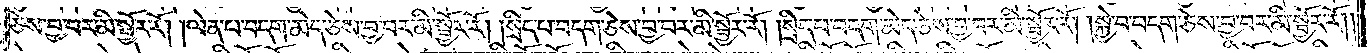ཅེས་བྱ་བར་མི་སྦྱོར་རོ། །ལེན་པ་བདག་མེད་ཅེས་བྱ་བར་མི་སྦྱོར་རོ། །སྲིད་པ་བདག་ཅེས་བྱ་བར་མི་སྦྱོར་རོ། །སྲིད་པ་བདག་མེད་ཅེས་བྱ་བར་མི་སྦྱོར་རོ། །སྐྱེ་བ་བདག་ཅེས་བྱ་བར་མི་སྦྱོར་རོ༎
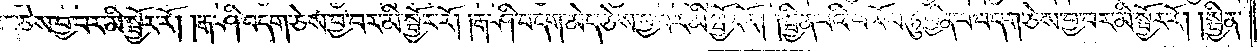སྐྱེ་བ་བདག་མེད་ཅེས་བྱ་བར་མི་སྦྱོར་རོ། །རྒ་ཤི་བདག་ཅེས་བྱ་བར་མི་སྦྱོར་རོ། །རྒ་ཤི་བདག་མེད་ཅེས་བྱ་བར་མི་སྦྱོར་རོ། །སྦྱིན་པའི་ཕ་རོལ་ཏུ་ཕྱིན་པ་བདག་ཅེས་བྱ་བར་མི་སྦྱོར་རོ། །སྦྱིན་
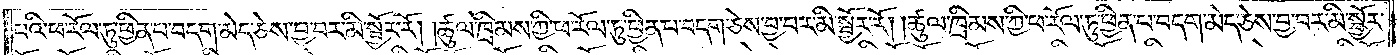པའི་ཕ་རོལ་ཏུ་ཕྱིན་པ་བདག་མེད་ཅེས་བྱ་བར་མི་སྦྱོར་རོ། །ཚུལ་ཁྲིམས་ཀྱི་ཕ་རོལ་ཏུ་ཕྱིན་པ་བདག་ཅེས་བྱ་བར་མི་སྦྱོར་རོ། །ཚུལ་ཁྲིམས་ཀྱི་ཕ་རོལ་ཏུ་ཕྱིན་པ་བདག་མེད་ཅེས་བྱ་བར་མི་སྦྱོར་
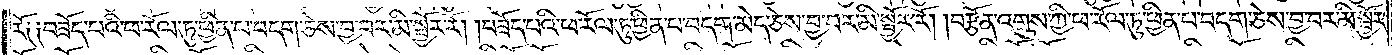རོ༑ ༑བཟོད་པའི་ཕ་རོལ་ཏུ་ཕྱིན་པ་བདག་ཅེས་བྱ་བར་མི་སྦྱོར་རོ། །བཟོད་པའི་ཕ་རོལ་ཏུ་ཕྱིན་པ་བདག་མེད་ཅེས་བྱ་བར་མི་སྦྱོར་རོ། །བརྩོན་འགྲུས་ཀྱི་ཕ་རོལ་ཏུ་ཕྱིན་པ་བདག་ཅེས་བྱ་བར་མི་སྦྱོར་
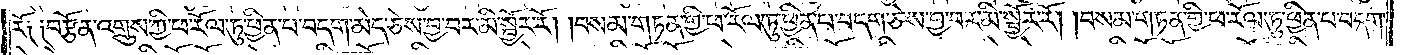རོ༑ ༑བརྩོན་འགྲུས་ཀྱི་ཕ་རོལ་ཏུ་ཕྱིན་པ་བདག་མེད་ཅེས་བྱ་བར་མི་སྦྱོར་རོ། །བསམ་གཏན་གྱི་ཕ་རོལ་ཏུ་ཕྱིན་པ་བདག་ཅེས་བྱ་བར་མི་སྦྱོར་རོ། །བསམ་གཏན་གྱི་ཕ་རོལ་ཏུ་ཕྱིན་པ་བདག་
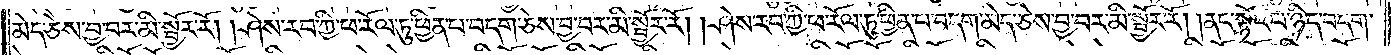མེད་ཅེས་བྱ་བར་མི་སྦྱོར་རོ། །ཤེས་རབ་ཀྱི་ཕ་རོལ་ཏུ་ཕྱིན་པ་བདག་ཅེས་བྱ་བར་མི་སྦྱོར་རོ། །ཤེས་རབ་ཀྱི་ཕ་རོལ་ཏུ་ཕྱིན་པ་བདག་མེད་ཅེས་བྱ་བར་མི་སྦྱོར་རོ། །ནང་སྟོང་པ་ཉིད་བདག་
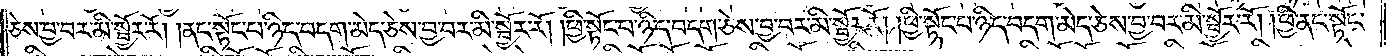ཅེས་བྱ་བར་མི་སྦྱོར་རོ། །ནང་སྟོང་པ་ཉིད་བདག་མེད་ཅེས་བྱ་བར་མི་སྦྱོར་རོ། །ཕྱི་སྟོང་པ་ཉིད་བདག་ཅེས་བྱ་བར་མི་སྦྱོར་རོ། །ཕྱི་སྟོང་པ་ཉིད་བདག་མེད་ཅེས་བྱ་བར་མི་སྦྱོར་རོ། །ཕྱི་ནང་སྟོང་
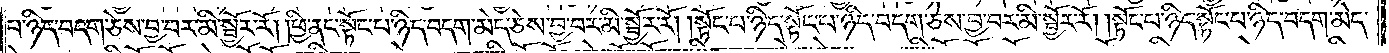པ་ཉིད་བདག་ཅེས་བྱ་བར་མི་སྦྱོར་རོ། །ཕྱི་ནང་སྟོང་པ་ཉིད་བདག་མེད་ཅེས་བྱ་བར་མི་སྦྱོར་རོ། །སྟོང་པ་ཉིད་སྟོང་པ་ཉིད་བདག་ཅེས་བྱ་བར་མི་སྦྱོར་རོ། །སྟོང་པ་ཉིད་སྟོང་པ་ཉིད་བདག་མེད་
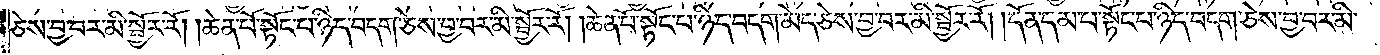ཅེས་བྱ་བར་མི་སྦྱོར་རོ། །ཆེན་པོ་སྟོང་པ་ཉིད་བདག་ཅེས་བྱ་བར་མི་སྦྱོར་རོ། །ཆེན་པོ་སྟོང་པ་ཉིད་བདག་མེད་ཅེས་བྱ་བར་མི་སྦྱོར་རོ། །དོན་དམ་པ་སྟོང་པ་ཉིད་བདག་ཅེས་བྱ་བར་མི་
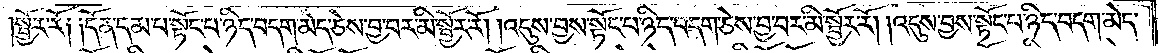སྦྱོར་རོ། །དོན་དམ་པ་སྟོང་པ་ཉིད་བདག་མེད་ཅེས་བྱ་བར་མི་སྦྱོར་རོ། །འདུས་བྱས་སྟོང་པ་ཉིད་བདག་ཅེས་བྱ་བར་མི་སྦྱོར་རོ། །འདུས་བྱས་སྟོང་པ་ཉིད་བདག་མེད་
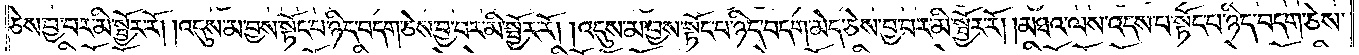ཅེས་བྱ་བར་མི་སྦྱོར་རོ། །འདུས་མ་བྱས་སྟོང་པ་ཉིད་བདག་ཅེས་བྱ་བར་མི་སྦྱོར་རོ། །འདུས་མ་བྱས་སྟོང་པ་ཉིད་བདག་མེད་ཅེས་བྱ་བར་མི་སྦྱོར་རོ། །མཐའ་ལས་འདས་པ་སྟོང་པ་ཉིད་བདག་ཅེས་
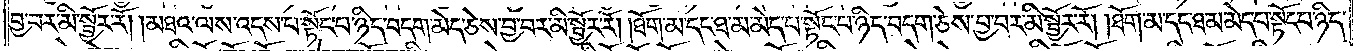བྱ་བར་མི་སྦྱོར་རོ། །མཐའ་ལས་འདས་པ་སྟོང་པ་ཉིད་བདག་མེད་ཅེས་བྱ་བར་མི་སྦྱོར་རོ། །ཐོག་མ་དང་ཐ་མ་མེད་པ་སྟོང་པ་ཉིད་བདག་ཅེས་བྱ་བར་མི་སྦྱོར་རོ། །ཐོག་མ་དང་ཐ་མ་མེད་པ་སྟོང་པ་ཉིད་
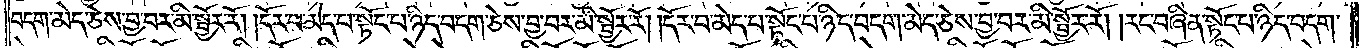བདག་མེད་ཅེས་བྱ་བར་མི་སྦྱོར་རོ། །དོར་བ་མེད་པ་སྟོང་པ་ཉིད་བདག་ཅེས་བྱ་བར་མི་སྦྱོར་རོ། །དོར་བ་མེད་པ་སྟོང་པ་ཉིད་བདག་མེད་ཅེས་བྱ་བར་མི་སྦྱོར་རོ། །རང་བཞིན་སྟོང་པ་ཉིད་བདག་
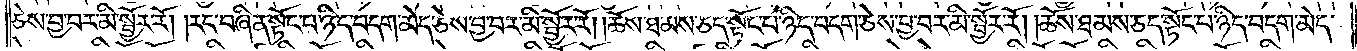ཅེས་བྱ་བར་མི་སྦྱོར་རོ། །རང་བཞིན་སྟོང་པ་ཉིད་བདག་མེད་ཅེས་བྱ་བར་མི་སྦྱོར་རོ། །ཆོས་ཐམས་ཅད་སྟོང་པ་ཉིད་བདག་ཅེས་བྱ་བར་མི་སྦྱོར་རོ། །ཆོས་ཐམས་ཅད་སྟོང་པ་ཉིད་བདག་མེད་
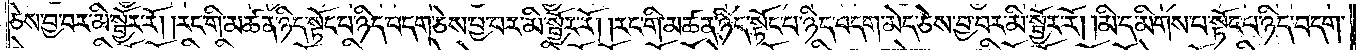ཅེས་བྱ་བར་མི་སྦྱོར་རོ། །རང་གི་མཚན་ཉིད་སྟོང་པ་ཉིད་བདག་ཅེས་བྱ་བར་མི་སྦྱོར་རོ། །རང་གི་མཚན་ཉིད་སྟོང་པ་ཉིད་བདག་མེད་ཅེས་བྱ་བར་མི་སྦྱོར་རོ། །མི་དམིགས་པ་སྟོང་པ་ཉིད་བདག་
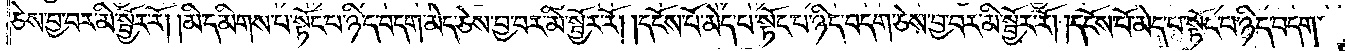ཅེས་བྱ་བར་མི་སྦྱོར་རོ། །མི་དམིགས་པ་སྟོང་པ་ཉིད་བདག་མེད་ཅེས་བྱ་བར་མི་སྦྱོར་རོ། །དངོས་པོ་མེད་པ་སྟོང་པ་ཉིད་བདག་ཅེས་བྱ་བར་མི་སྦྱོར་རོ། །དངོས་པོ་མེད་པ་སྟོང་པ་ཉིད་བདག་
